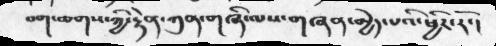བག་ཆགས་ཀྱིརྟེན་ཀུན་གཞི་ལས་གཞན་མྱེད་པའི་ཕྱིར་རོ་།
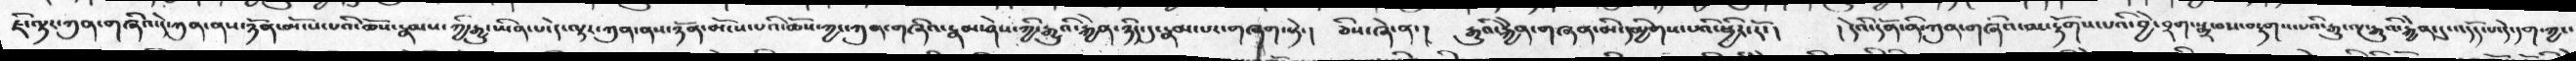ཇི་ལྟར་ཀུན་གཞིའ་དེ་ཀུན་ནས་ཉོན་མོངས་པའི་ཆོས་རྣམས་ཀྱི་རྒྱུ་ཡིན་པ་དེ་ལྟར་ཀུན་ནས་ཉོན་མོངས་པའི་ཆོས་ཀྱང་ཀུན་གཞིའ་རྣམ་ཤེས་ཀྱི་རྒྱུའི་རྐྱེན་ཉིད་དུ་རྣམ་པར་གཞག་སྟེ་།  ཅིས་ཞེ་ན་།  རྒྱུའི་རྐྱེན་གཞན་མི་དམྱིགས་པའི་ཕྱིར་རོ་།  །དེའི་དོན་ནི་ཀུན་གཞིའ་མ་རྟོགས་པའི་བྱེ་བྲག་སྨྲ་བས་བརྟགས་པའི་རྒྱུ་ལྔ་རྒྱུའི་རྐྱེན་དུ་འདོད་པ་དེ་དག་ཀྱང་
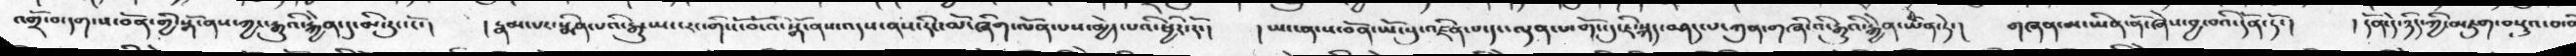འགྲོ་བ་དག་ས་བོན་གྱི་སྒོ་ནས་ཀྱང་རྒྱུའི་རྐྱེན་དུ་མི་རུང་ངོ་།  །རྣམ་པར་སྨིན་པའི་རྒྱུ་ཡང་རང་གི་ངོ་བོ་འི་སྒོ་ནས་འདས་ནས་རིང་མོ་ཞིག་ལོན་པས་མྱེད་པའི་ཕྱིར་རོ་།  །ཡང་ན་ས་བོན་ཡོངསུ་འཛིན་པ་དང་ལྡན་པ་གོང་དུ་ཇི་སྐད་བཤད་པ་ཀུན་གཞི་འི་རྒྱུའི་རྐྱེན་ཡིན་ཏེ་།  གཞན་མ་ཡིན་ནོ་ཞེས་བྱ་བའི་དོན་ཏོ་།   །དོན་དེ་ཉིད་ཀྱི་མཇུག་བསྡུའ་བ་
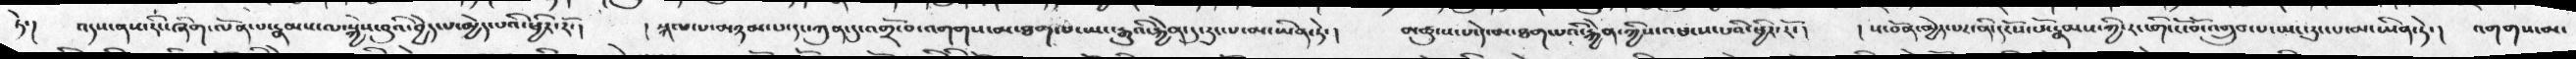ཏེ་།  འདས་ནས་རིང་ཞིག་ལོན་པ་རྣམས་ལ་སྐྱེས་བུའི་བྱེད་པ་མྱེད་པའི་ཕྱིར་རོ་།  །སྐལ་པ་མཉམ་པ་དང་ཀུན་དུ་འགྲོ་བ་འགགས་མ་ཐག་པ་ཡང་རྒྱུའི་རྐྱེན་དུ་རུང་པ་མ་ཡིན་ཏེ་།  མཚུངས་པ་དེ་མ་ཐག་པའི་རྐྱེན་ཀྱིས་འཕངས་པའི་ཕྱིར་རོ་།  །ས་བོན་མྱེད་པར་ནི་དངོས་པོ་རྣམས་ཀྱི་རང་གི་ངོ་བོ་འགྲུབ་པ་ཡང་རུང་པ་མ་ཡིན་ཏེ་།  འགགས་མ་
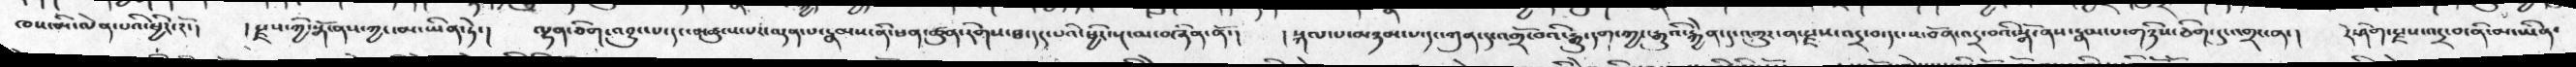ཁས་མི་ལེན་པའི་ཕྱིར་རོ་།   །རྫས་ཀྱི་སྒོ་ནས་ཀྱང་མ་ཡིན་ཏེ་།   ལྷན་ཅིག་འབྱུང་པ་དང་མཚུངས་པར་ལྡན་པ་རྣམས་ནི་ཕན་ཚུན་རིགས་ཐ་དད་པའི་ཕྱིར་སྔ་མ་བཞིན་ནོ་།  །སྐལ་པ་མཉམ་པ་དང་ཀུན་དུ་འགྲོ་བའི་རྒྱུ་དག་ཀྱང་རྒྱུའི་རྐྱེན་དུ་འགྱུར་ན་རྫས་འདྲ་བ་དང་ས་བོན་འདྲ་བའི་སྒོ་ནས་རྣམ་པ་གཉིས་ཅིག་དུ་འགྲང་ན་།    རེ་ཤིག་རྫས་འདྲ་བ་ནི་མ་་ཡིན་
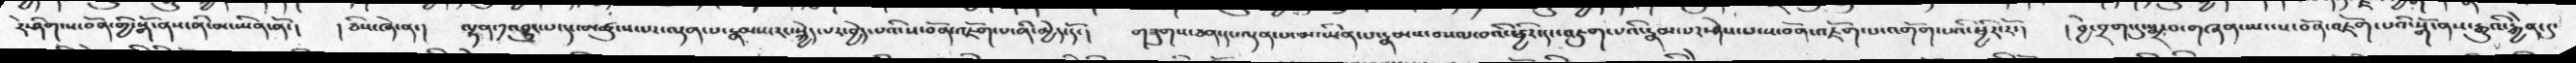རེ་ཤིག་ས་བོན་གྱི་སྒོ་ནས་ནི་མ་ཡིན་ནོ་།   །ཅིས་ཞེ་ན་།  ལྷན་༡འབྱུང་པ་དང་མཚུངས་པར་ལྡན་པ་རྣམས་རང་སྐྱེད་པར་བྱེད་པའི་ས་བོན་འཇོག་པ་ནི་མྱེད་དོ་།  གཟུགས་ཅན་དང་ལྡན་པ་མ་ཡིན་པ་རྣམས་བསལ་བའི་ཕྱིར་དང་འཇུག་པའི་རྣམ་པར་ཤེས་པ་ས་བོན་འཇོག་པ་འགོག་པའི་ཕྱིར་རོ་།   །བྱེ་བྲག་དུ་སྨྲ་བ་གཞན་ཡང་ས་བོན་འཇོག་པའི་སྒོ་ནས་རྒྱུའི་རྐྱེན་དུ་
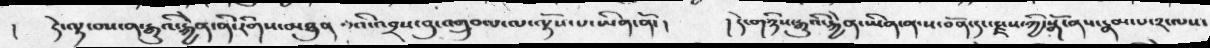།     དེ་ལྟ་བས་ན་རྒྱུའི་རྐྱེན་ནི་རིགས་མཐུན་པའི་འབྲས་བུ་འགྲུབ་པ་ལ་ལྟོས་པ་ཡིན་ནོ་།  །དེ་གཉིས་རྒྱུའི་རྐྱེན་ཡིན་ན་ས་བོན་དང་རྫས་ཀྱི་སྒོ་ནས་རྣམ་པ་༢་ལས་
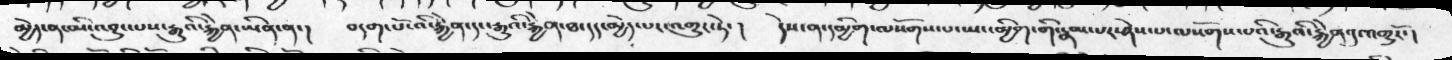མྱེད་ན་མི་འབྱུང་པས་རྒྱུའི་རྐྱེན་ཡིན་ན་།  བདག་པོ་འི་རྐྱེན་དང་རྒྱུའི་རྐྱེན་ཐ་དད་མྱེད་པར་འགྱུར་ཏེ་།  དེས་ན་དམྱིག་ལསོགས་པ་ཡང་མྱིག་གི་རྣམ་པར་ཤེས་པ་ལསོགས་པའི་རྒྱུའི་རྐྱེན་དུ་འགྱུརོ་།
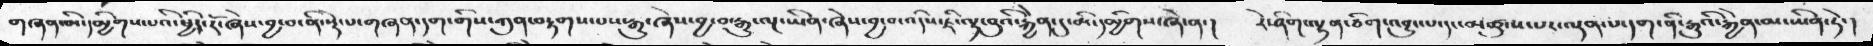གཞན་མི་དམྱིགས་པའི་ཕྱིར་རོ་ཞེས་བྱ་བ་ནི་སྡེ་པ་གཞན་དག་གིས་ཀུན་བརྟགས་པས་རྒྱུ་ཞེས་བྱ་བ་རྒྱུ་ལྔ་ཡིན་ཞེས་བྱ་བ་འདིས་ཇི་ལྟ་བུའི་རྐྱེན་དུ་མི་དམྱིགས་ཞེ་ན་།  རེ་ཤིག་ལྷན་ཅིག་འབྱུང་པ་དང་མཚུངས་པར་ལྡན་པ་དག་ནི་རྒྱུའི་རྐྱེན་མ་ཡིན་ཏེ་།
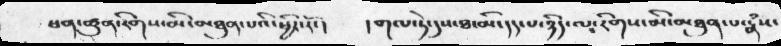ཕན་ཚུན་རིགས་མི་མཐུན་པའི་ཕྱིར་རོ་།  །གལ་ཏེ་དུས་ཐ་མི་དད་པ་ཉིད་ལ་རིགས་མི་མཐུན་པ་རྣཾས་
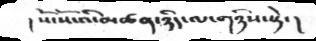། སོ་སོ་འི་མཚན་ཉིད་ལ་གཉིས་སྟེ་།
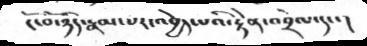ངོ་བོ་ཉིད་རྣམ་པར་འབྱེད་པའི་རྟེན་འབྲེལ་དང་།
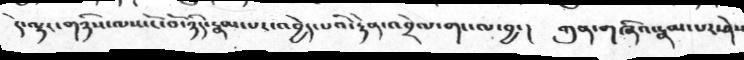དེ་ལྟར་གཉིས་ལས་ངོ་བོ་ཉིད་རྣམ་པར་འབྱེད་པའི་རྟེན་འབྲེལ་གང་ལ་བྱ་།  ཀུན་གཞིའ་རྣམ་པར་ཤེས
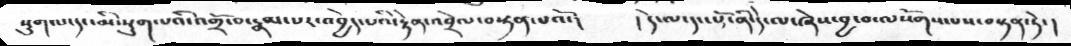སྡུག་པ་དང་མི་སྡུག་པའི་འགྲོ་བ་རྣམ་པར་འབྱེད་པའི་རྟེན་འབྲེལ་བསྟན་པའོ་།   །དེ་ལ་དང་པོ་ནི་དེ་ལ་ཞེས་བྱ་བ་ལསོགས་པས་བསྟན་ཏེ་།
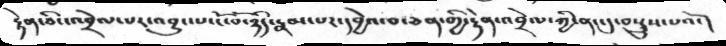རྟེན་ཅིང་འབྲེལ་པར་འབྱུང་པ་ངོ་བོ་ཉིད་རྣམ་པར་དབྱེའ་བ་ཅན་གྱི་རྟེན་འབྲེལ་ཀྱི་ནང་དུ་བསྡུས་པའོ་།
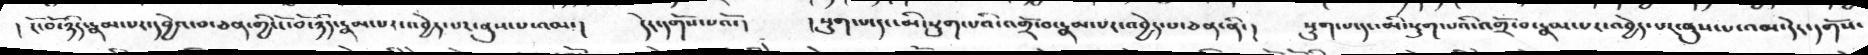། ངོ་བོ་ཉིད་རྣམ་པར་དབྱེའ་བ་ཅན་གྱི་ངོ་བོ་ཉིད་རྣམ་པར་་འབྱེད་པར་ནུས་པ་འམ་།  དེར་དགོས་པའོ་།   ། སྡུག་པ་དང་མི་སྡུག་པའི་འགྲོ་བ་རྣམ་པར་འབྱེད་པ་ཅན་ནི་།  སྡུག་པ་དང་མི་སྡུག་པའི་འགྲོ་བ་རྣམ་པར་འབྱེད་པར་ནུས་པ་འམ་དེར་དགོས་
